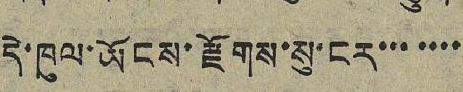དེ་ཁུལ་ཡོངས་རྫོགས་སུ་ངར་་་་་་་
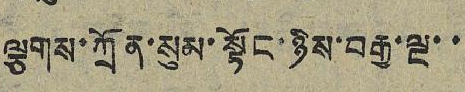ལྕགས་ཀྲོན་སུམ་སྟོང་ཉིས་བརྒྱ་ལྔ་་
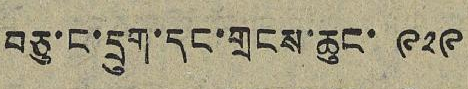བཅུ་ང་དྲུག་དང་གྲངས་ཆུང་ ༩༢༩
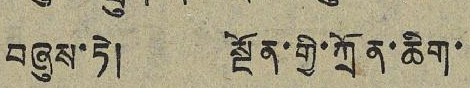བཞུས་ཏེ། སྔོན་གྱི་ཀྲོན་ཆིག་
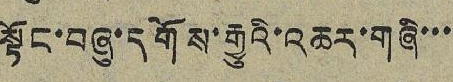སྟོང་བཞུ་དགོས་རྒྱུའི་འཆར་གཞི་་་
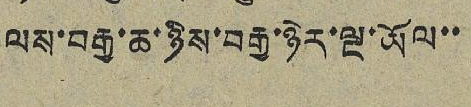ལས་བརྒྱ་ཆ་ཉིས་བརྒྱ་ཉེར་ལྔ་ཡོལ་་
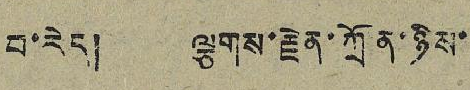བ་རེད། ལྕགས་རྗེན་ཀྲོན་ཉིས་
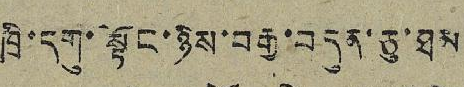ཁྲི་དགུ་སྟོང་ཉིས་བརྒྱ་བདུན་ཅུ་ཐམ
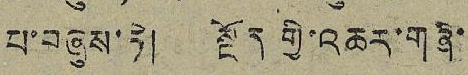པ་བཞུས་ཏེ། སྔོན གྱི་འཆར་གཞི་
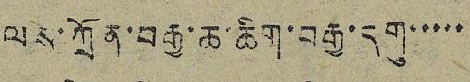ལས་ཀྲོན་བརྒྱ་ཆ་ཆིག་བརྒྱ་དགུ་་་་་
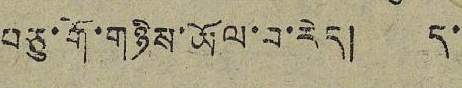བཅུ་གོ་གཉིས་ཡོལ་བ་རེད། ད་
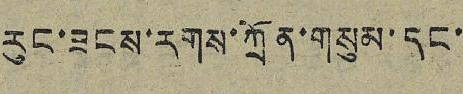རུང་ཟངས་རགས་ཀྲོན་གསུམ་དང་
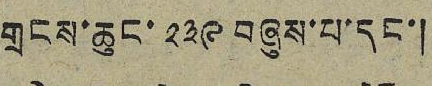གྲངས་ཆུང་ ༢༣༩ བཞུས་པ་དང་།
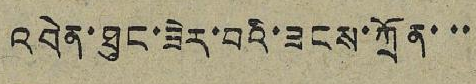འབེན་ཐུང་ཟེར་བའི་ཟངས་ཀྲོན་་་
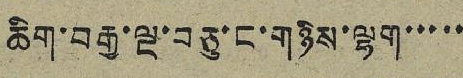ཆིག་བརྒྱ་ལྔ་བཅུ་ང་གཉིས་ལྷག་་་་་
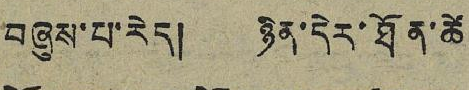བཞུས་པ་རེད། ཉིན་དེར་ཐོན་ཚེ
